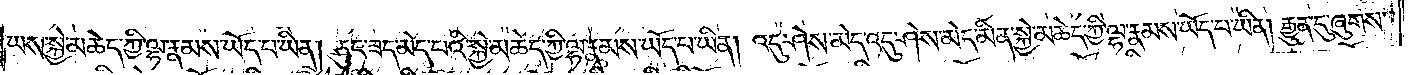ཡས་སྐྱེ་མཆེད་ཀྱི་ལྷ་རྣམས་ཡོད་པ་ཡིན། ཅུང་ཟད་མེད་པའི་སྐྱེ་མཆེད་ཀྱི་ལྷ་རྣམས་ཡོད་པ་ཡིན། འདུ་ཤེས་མེད་འདུ་ཤེས་མེད་མིན་སྐྱེ་མཆེད་ཀྱི་ལྷ་རྣམས་ཡོད་པ་ཡིན། རྒྱུན་དུ་ཞུགས་
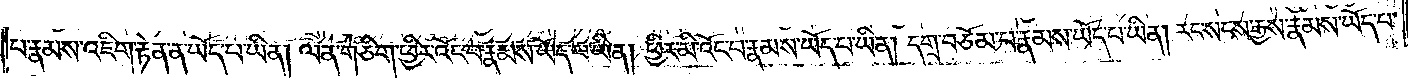པ་རྣམས་འཇིག་རྟེན་ན་ཡོད་པ་ཡིན། ལན་གཅིག་ཕྱིར་འོང་བ་རྣམས་ཡོད་པ་ཡིན། ཕྱིར་མི་འོང་བ་རྣམས་ཡོད་པ་ཡིན། དགྲ་བཅོམ་པ་རྣམས་ཡོད་པ་ཡིན། རང་སངས་རྒྱས་རྣམས་ཡོད་པ་
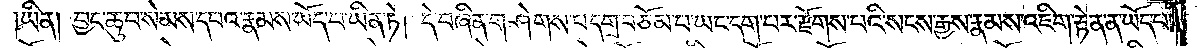ཡིན། བྱང་ཆུབ་སེམས་དཔའ་རྣམས་ཡོད་པ་ཡིན་ཏེ། དེ་བཞིན་གཤེགས་པ་དགྲ་བཅོམ་པ་ཡང་དག་པར་རྫོགས་པའི་སངས་རྒྱས་རྣམས་འཇིག་རྟེན་ན་ཡོད་པ་
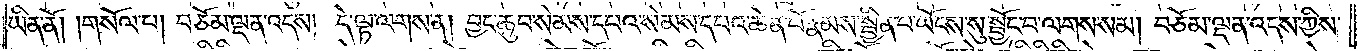ཡིན་ནོ། །གསོལ་པ། བཅོམ་ལྡན་འདས། དེ་ལྟ་ལགས་ན། བྱང་ཆུབ་སེམས་དཔའ་སེམས་དཔའ་ཆེན་པོ་རྣམས་སྦྱིན་པ་ཡོངས་སུ་སྦྱོང་བ་ལགས་སམ། བཅོམ་ལྡན་འདས་ཀྱིས་
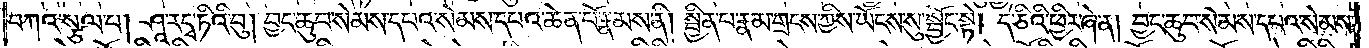བཀའ་སྩལ་པ། ཤཱ་རདྭ་ཏིའི་བུ། བྱང་ཆུབ་སེམས་དཔའ་སེམས་དཔའ་ཆེན་པོ་རྣམས་ནི། སྦྱིན་པ་རྣམ་གྲངས་ཀྱིས་ཡོངས་སུ་སྦྱོང་སྟེ། དེ་ཅིའི་ཕྱིར་ཞེ་ན། བྱང་ཆུབ་སེམས་དཔའ་སེམས་
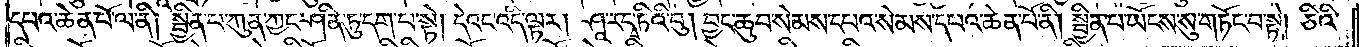དཔའ་ཆེན་པོ་ལ་ནི། སྦྱིན་པ་ཀུན་ཀྱང་ཤིན་ཏུ་དག་པ་སྟེ། དེའང་འདི་ལྟར། ཤཱ་རདྭ་ཏིའི་བུ། བྱང་ཆུབ་སེམས་དཔའ་སེམས་དཔའ་ཆེན་པོ་ནི། སྦྱིན་པ་ཡོངས་སུ་གཏོང་བ་སྟེ། ཅིའི་
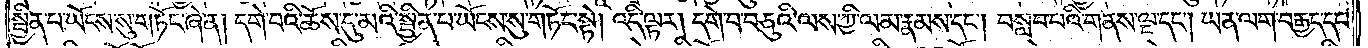སྦྱིན་པ་ཡོངས་སུ་གཏོང་ཞེ་ན། དགེ་བའི་ཆོས་དུ་མའི་སྦྱིན་པ་ཡོངས་སུ་གཏོང་སྟེ། འདི་ལྟར། དགེ་བ་བཅུའི་ལས་ཀྱི་ལམ་རྣམས་དང༌། བསླབ་པའི་གནས་ལྔ་དང༌། ཡན་ལག་བརྒྱད་དང་
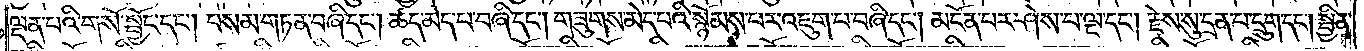ལྡན་པའི་གསོ་སྦྱོང་དང༌། བསམ་གཏན་བཞི་དང༌། ཚད་མེད་པ་བཞི་དང༌། གཟུགས་མེད་པའི་སྙོམས་པར་འཇུག་པ་བཞི་དང༌། མངོན་པར་ཤེས་པ་ལྔ་དང༌། རྗེས་སུ་དྲན་པ་དྲུག་དང༌། སྦྱིན་
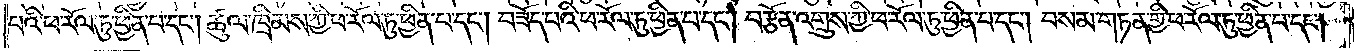པའི་ཕ་རོལ་ཏུ་ཕྱིན་པ་དང༌། ཚུལ་ཁྲིམས་ཀྱི་ཕ་རོལ་ཏུ་ཕྱིན་པ་དང༌། བཟོད་བའི་ཕ་རོལ་ཏུ་ཕྱིན་པ་དང༌། བརྩོན་འགྲུས་ཀྱི་ཕ་རོལ་ཏུ་ཕྱིན་པ་དང༌། བསམ་གཏན་གྱི་ཕ་རོལ་ཏུ་ཕྱིན་པ་དང༌།
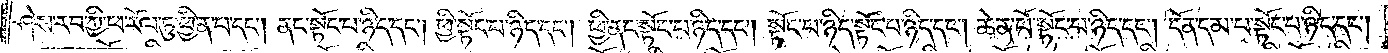ཤེས་རབ་ཀྱི་ཕ་རོལ་ཏུ་ཕྱིན་པ་དང༌། ནང་སྟོང་པ་ཉིད་དང༌། ཕྱི་སྟོང་པ་ཉིད་དང༌། ཕྱི་ནང་སྟོང་པ་ཉིད་དང༌། སྟོང་པ་ཉིད་སྟོང་པ་ཉིད་དང༌། ཆེན་པོ་སྟོང་པ་ཉིད་དང༌། དོན་དམ་པ་སྟོང་པ་ཉིད་དང༌།
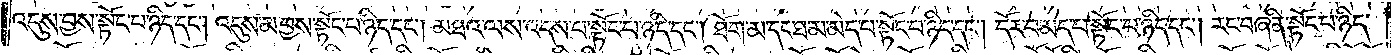འདུས་བྱས་སྟོང་པ་ཉིད་དང༌། འདུས་མ་བྱས་སྟོང་པ་ཉིད་དང༌། མཐའ་ལས་འདས་པ་སྟོང་པ་ཉིད་དང༌། ཐོག་མ་དང་ཐ་མ་མེད་པ་སྟོང་བ་ཉིད་དང༌། དོར་བ་མེད་པ་སྟོང་པ་ཉིད་དང༌། རང་བཞིན་སྟོང་པ་ཉིད་
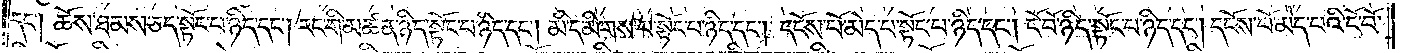དང༌། ཆོས་ཐམས་ཅད་སྟོང་པ་ཉིད་དང༌། རང་གི་མཚན་ཉིད་སྟོང་པ་ཉིད་དང༌། མི་དམིགས་པ་སྟོང་པ་ཉིད་དང༌། དངོས་པོ་མེད་པ་སྟོང་པ་ཉིད་དང༌། ངོ་བོ་ཉིད་སྟོང་པ་ཉིད་དང༌། དངོས་པོ་མེད་པའི་ངོ་བོ་
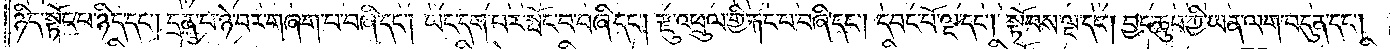ཉིད་སྟོང་པ་ཉིད་དང༌། དྲན་པ་ཉེ་བར་གཞག་བ་བཞི་དང༌། ཡང་དག་པར་སྤོང་བ་བཞི་དང༌། རྫུ་འཕྲུལ་གྱི་རྐང་བ་བཞི་དང༌། དབང་པོ་ལྔ་དང༌། སྟོབས་ལྔ་དང༌། བྱང་ཆུབ་ཀྱི་ཡན་ལག་བདུན་དང༌།
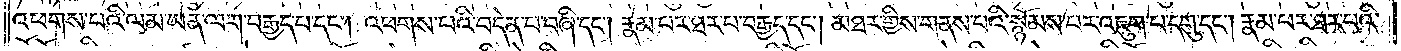འཕགས་པའི་ལམ་ཡན་ལག་བརྒྱད་བ་དང༌། འཕགས་པའི་བདེན་པ་བཞི་དང༌། རྣམ་པར་ཐར་པ་བརྒྱད་དང༌། མཐར་གྱིས་གནས་པའི་སྙོམས་པར་འཇུག་པ་དགུ་དང༌། རྣམ་པར་ཐར་པའི་
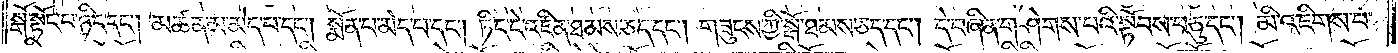སྒོ་སྟོང་པ་ཉིད་དང༌། མཚན་མ་མེད་པ་དང༌། སྨོན་པ་མེད་པ་དང༌། ཏིང་ངེ་འཛིན་ཐམས་ཅད་དང༌། གཟུངས་ཀྱི་སྒོ་ཐམས་ཅད་དང༌། དེ་བཞིན་གཤེགས་པའི་སྟོབས་བཅུ་དང༌། མི་འཇིགས་པ་
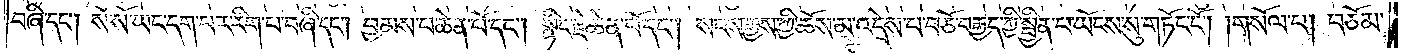བཞི་དང༌། སོ་སོ་ཡང་དག་པར་རིག་པ་བཞི་དང༌། བྱམས་པ་ཆེན་པོ་དང༌། སྙིང་རྗེ་ཆེན་པོ་དང༌། སངས་རྒྱས་ཀྱི་ཆོས་མ་འདྲེས་པ་བཅོ་བརྒྱད་ཀྱི་སྦྱིན་པ་ཡོངས་སུ་གཏོང་ངོ༌། །གསོལ་པ། བཅོམ་
